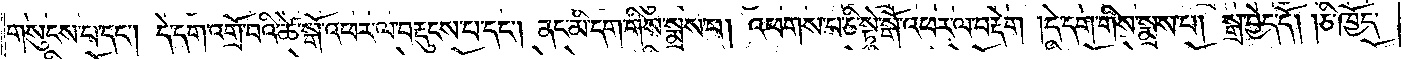གསུངས་པ་དང༌། དེ་དག་འགྲོ་བའི་ཚེ་སྒོ་འཕར་ལ་བརྡུངས་པ་དང༌། ནང་མི་དག་གིས་སྨྲས་པ། འཕགས་པ་ཅི་སྟེ་སྒོ་འཕར་ལ་བརྡེག །དེ་དག་གིས་སྨྲས་པ། སྒྲ་བྱེད་དོ། །ཅི་ཁྱོད་
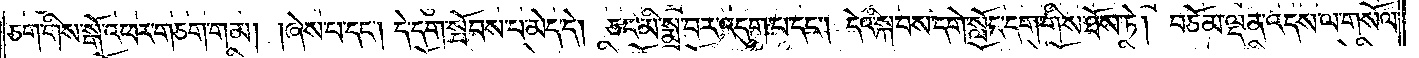ཅག་གིས་སྒོ་འཕར་གཅག་གམ། །ཞེས་པ་དང༌། དེ་དག་སྤོབས་པ་མེད་དེ། ཅང་མི་སྨྲ་བར་འདུག་པ་དང༌། དེའི་སྐབས་དགེ་སློང་དག་གིས་ཐོས་ཏེ། བཅོམ་ལྡན་འདས་ལ་གསོལ་
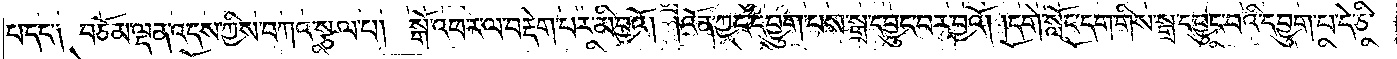པ་དང༌། བཅོམ་ལྡན་འདས་ཀྱིས་བཀའ་སྩལ་པ། སྒོ་འཕར་ལ་བརྡེག་པར་མི་བྱའོ། །འོན་ཀྱང་དབྱུག་པས་སྒྲ་དབྱུང་བར་བྱའོ། །དགེ་སློང་དག་གིས་སྒྲ་དབྱུང་བའི་དབྱུག་པ་དེ་ཅི་
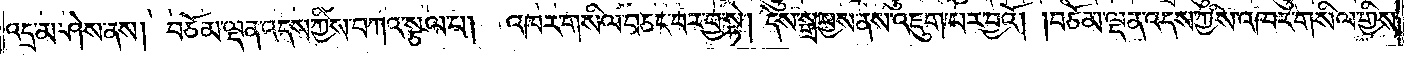འདྲ་མ་ཤེས་ནས། བཅོམ་ལྡན་འདས་ཀྱིས་བཀའ་སྩལ་པ། འཁར་གསིལ་བཅང་བར་བྱ་སྟེ། དེས་སྒྲ་བྱས་ནས་འཇུག་པར་བྱའོ། །བཅོམ་ལྡན་འདས་ཀྱིས་འཁར་གསིལ་གྱིས་
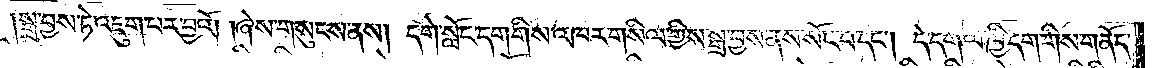སྒྲ་བྱས་ཏེ་འཇུག་པར་བྱའོ། །ཞེས་གསུངས་ནས། དགེ་སློང་དག་གིས་འཁར་གསིལ་གྱིས་སྒྲ་བྱས་ནས་སོང་བ་དང༌། དེ་དག་ལ་ཁྱི་དག་གིས་གནོད་
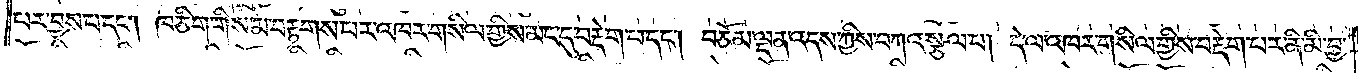པར་བྱས་པ་དང༌། ཁ་ཅིག་གིས་མ་བརྟགས་པར་འཁར་གསིལ་གྱིས་མང་དུ་བརྡེག་པ་དང༌། བཅོམ་ལྡན་འདས་ཀྱིས་བཀའ་སྩལ་པ། དེ་ལ་འཁར་གསིལ་གྱིས་བརྡེག་པར་ནི་མི་བྱ་
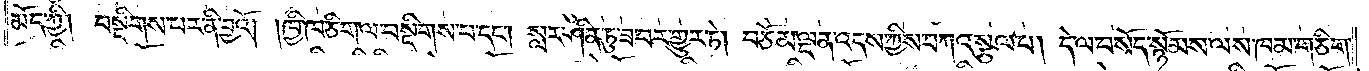མོད་ཀྱི། བསྡིགས་པར་ནི་བྱའོ། །ཁྱི་ཁ་ཅིག་ལ་བསྡིགས་པ་དང༌། སླར་ཤིན་ཏུ་ཟ་བར་གྱུར་ཏེ། བཅོམ་ལྡན་འདས་ཀྱིས་བཀའ་སྩལ་པ། དེ་ལ་བསོད་སྙོམས་ལས་ཁམ་གཅིག་
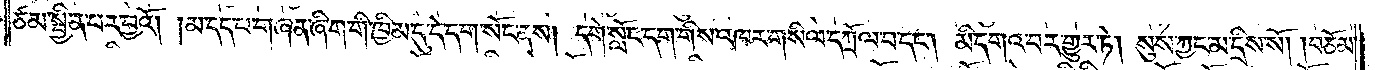ཙམ་སྦྱིན་པར་བྱའོ། །མ་དད་པ་གཞན་ཞིག་གི་ཁྱིམ་དུ་དེ་དག་སོང་ནས། དགེ་སློང་དག་གིས་འཁར་གསིལ་དཀྲོལ་བ་དང༌། མི་དགའ་བར་གྱུར་ཏེ། སུས་ཀྱང་མ་དྲིས་སོ། །བཅོམ་
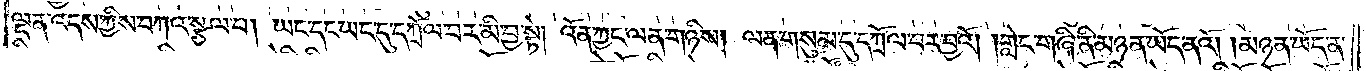ལྡན་འདས་ཀྱིས་བཀའ་སྩལ་པ། ཡང་དང་ཡང་དུ་དཀྲོལ་བར་མི་བྱ་སྟེ། འོན་ཀྱང་ལན་གཉིས། ལན་གསུམ་དུ་དཀྲོལ་བར་བྱའོ། །གླེང་གཞི་ནི་མཉན་ཡོད་ནའོ། །མཉན་ཡོད་ན་
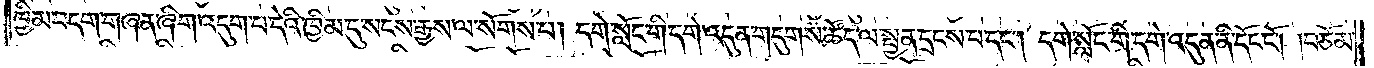ཁྱིམ་བདག་གཞན་ཞིག་འདུག་པ་དེའི་ཁྱིམ་དུ་སངས་རྒྱས་ལ་སོགས་པ། དགེ་སློང་གི་དགེ་འདུན་གདུགས་ཚོད་ལ་སྤྱན་དྲངས་པ་དང༌། དགེ་སློང་གི་དགེ་འདུན་ནི་དོང་ངོ༌། །བཅོམ་
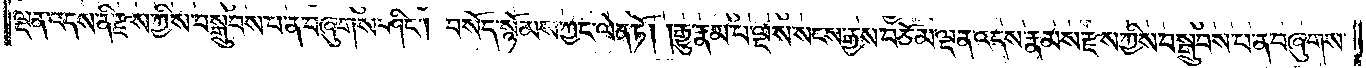ལྡན་འདས་ནི་རྫས་ཀྱིས་བསྒྲུབས་པ་ན་བཞུགས་ཤིང༌། བསོད་སྙོམས་ཀྱང་ལེན་ཏོ། །རྒྱུ་རྣམ་པ་ལྔས་སངས་རྒྱས་བཅོམ་ལྡན་འདས་རྣམས་རྫས་ཀྱིས་བསྒྲུབས་པ་ན་བཞུགས་
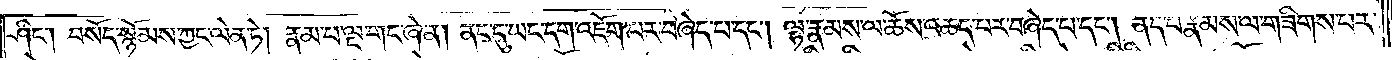ཤིང༌། བསོད་སྙོམས་ཀྱང་ལེན་ཏེ། རྣམ་པ་ལྔ་གང་ཞེ་ན། ནང་དུ་ཡང་དག་འཇོག་པར་བཞེད་པ་དང༌། ལྷ་རྣམས་ལ་ཆོས་འཆད་པར་བཞེད་པ་དང༌། ནད་པ་རྣམས་ལ་གཟིགས་པར་
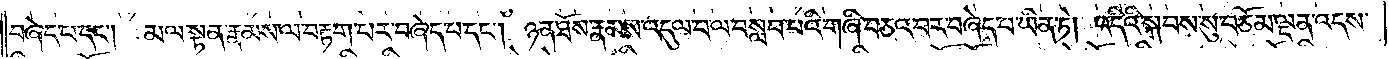བཞེད་པ་དང༌། མལ་སྟན་རྣམས་ལ་བརྟག་པར་བཞེད་པ་དང༌། ཉན་ཐོས་རྣམས་འདུལ་བ་ལ་བསླབ་པའི་གཞི་བཅའ་བར་བཞེད་པ་ཡིན་ཏེ། འདིའི་སྐབས་སུ་བཅོམ་ལྡན་འདས་
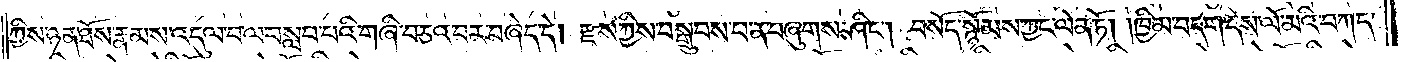ཀྱིས་ཉན་ཐོས་རྣམས་འདུལ་བ་ལ་བསླབ་པའི་གཞི་བཅའ་བར་བཞེད་དེ། རྫས་ཀྱིས་བསྒྲུབས་པ་ན་བཞུགས་ཤིང༌། བསོད་སྙོམས་ཀྱང་ལེན་ཏོ། །ཁྱིམ་བདག་དེས་ལོ་མའི་བཀད་
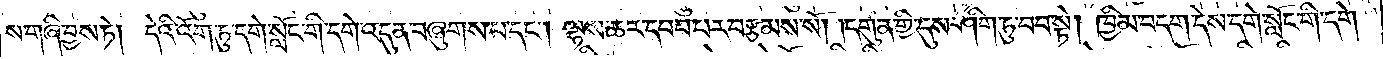ས་གཞི་བྱས་ཏེ། དེའི་འོག་ཏུ་དགེ་སློང་གི་དགེ་འདུན་བཞུགས་པ་དང༌། ལྷས་ཆར་དབབ་པར་བརྩམས་སོ། །དགུན་གྱི་དུས་ཤིག་ཏུ་བབ་སྟེ། ཁྱིམ་བདག་དེས་དགེ་སློང་གི་དགེ་
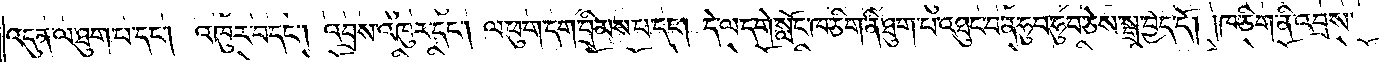འདུན་ལ་ཐུག་པ་དང༌། འཁུར་བ་དང༌། འབྲས་འཁུར་དང༌། ལ་ཕུག་དག་བྲིམས་པ་དང༌། དེ་ལ་དགེ་སློང་ཁ་ཅིག་ནི་ཐུག་པ་འཐུང་བ་ན་ཧུབ་ཧུབ་ཅེས་སྒྲ་བྱེད་དོ། །ཁ་ཅིག་འབྲས་
